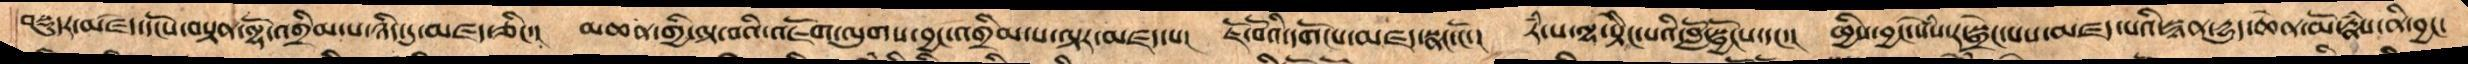བསྡུདར་མཛད་དེ་དངོས་བསྟན་ལྷོ་འགྲིམས་པ་ཉིད་དུ་མཛད་ཅིང་། མཆན་གྱི་ལྟ་བའི་འ་ཇོག་ལུགས་བྱང་འགྲིམས་པ་ལྟར་མཛད་པ། ཇོ་བོའི་དགོངས་མཛད་སྣང་ངོ་། རྃ་པ་ལྷ་སྡིེངས་པའི་བློ་སྦྱོངས་དང་། ཕྱིས་བྱང་སེྃས་རྭ་སྒྲེང་པས་མཛད་པའི་སྙན་རྒྱུད་ཆེན་མོ་རྣྃས་ནི་བྱང་
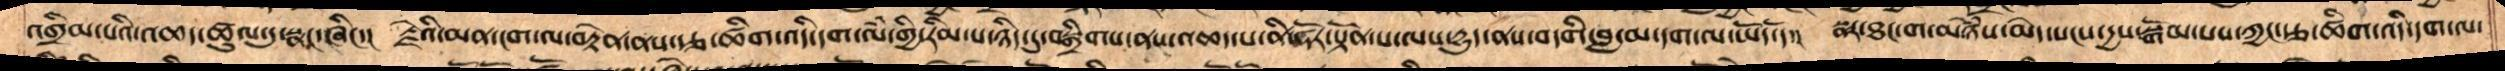འགྲིམ་པའི་འཆད་ཚུལ་དུ་སྣང་ཞིང་། རྗེའི་མན་ངག་ལ་བརྟེན་ནས་རྩ་ཚིག་འདི་དག་ལྃ་གྱི་རིམ་པ་ཉིད་དུ་བསྒྲིགས་ནས་འཆད་པ་ནི་ཧོར་སྟོན་པ་ལས་དྱུད་ནས་བདགི་བླ་མ་དག་ལ་ཡོད་དོ། སྣར་ཐང་པ་མཉྃས་མེད་སངས་དྱས་སྒོམ་པས་ཀྱང་རྩ་ཚིག་འདི་དག་ལ་
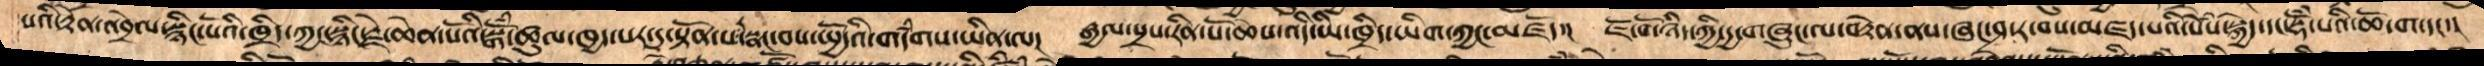པའི་རྟེན་འབྲེལ་སྙིང་པོའི་ཁྲིད་ཀྱང་སྙིང་རྗེ་ཆེན་པོའི་སྒོྃ་ཚུལ་ཁྱད་པར་དུ་སྟོན་པ་སྣང་བས་སྤྱོདའི་གདྃགས་ཡིན་ལ། རྒྱལ་སྲས་རིན་པོ་ཆེས་འདི་ཡི་ཁྲིད་ཡིག་ཅིག་ཀྱང་མཛོད་། ཇོ་བོ་ཉིད་ཀྱི་དྱ་གཞུང་ལ་བརྟེན་ནས་ཞང་ཤ་ར་བས་མཛད་པའི་སེྃས་སྐྱེད་དང་སྡོྃ་པའི་ཆོ་ག་དང་།
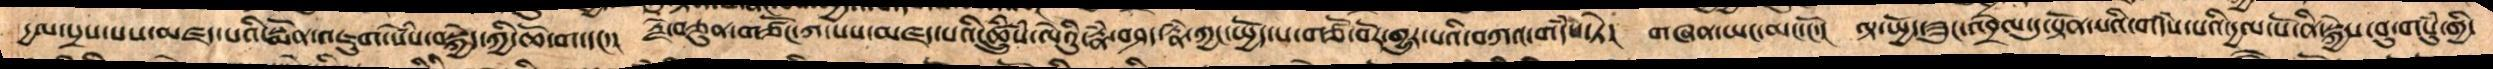དྱལ་སྲས་པས་མཛད་པའི་སྨོན་འཇུག་སེྃས་བསྐྱེད་ཀྱི་ཆོ་ག་དང་། རྗེ་བཙུན་གཙོང་ཀ་པས་མཛད་པའི་ཚྲིུཾས་ལེའིུ་རྣྃ་བཤད་རྣྃ་ཀྱང་སྤྱོད་པ་གཙོ་བོར་གྱུར་པའི་བཀའ་གདྃས་ཏེ། གཞན་ཡང་མང་ངོ་། ལྟ་སྤྱོད་ཟུང་འབྲེལ་དུ་སྟོན་པའི་གདྃས་པའི་རྒྱལ་པོ་ནི་སྐྱེས་བུ་གསུྃ་གྱི་
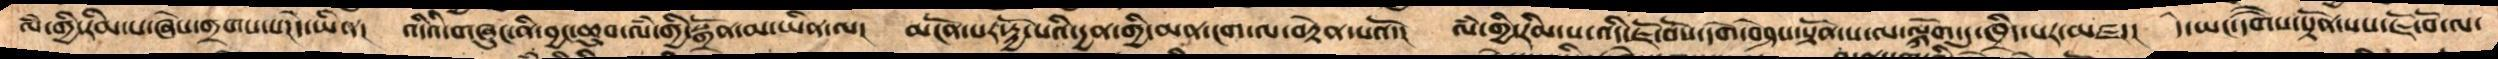ལྃ་གྱི་རིམ་པ་ཞེས་གྲགས་པ།དེ་ཡིན། འདིའི་གཞུང་ནི་བྱང་ཆུབ་ལྃ་གྱི་སྒྲོན་མ་ཡིན་ལ། མངོན་པར་རྟྱོ་པའི་དྱན་གྱི་མན་ངག་ལ་བརྟེན་པའོ། ལྃ་གྱི་རིམ་པ་འདི་ཇོ་བོས་དགེ་བཤེསསྟོན་པ་ལ་ལྐོག་དུ་ཁྲིད་པར་མཛད།  དེ་ཡང་དགེེཻས་སྟོན་པས་ཇོ་བོ་ལ་
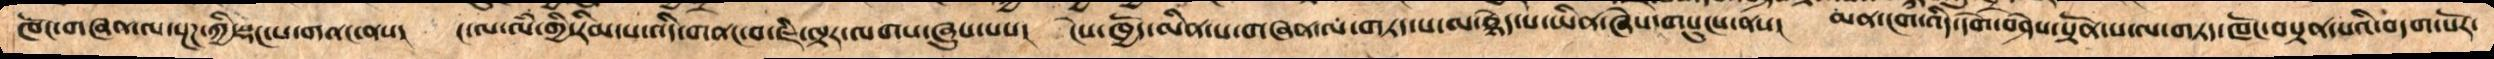ཁོང་གཞན་ལ་སྔཌ་ཀྱི་སྡང་པ་གནང་ནས། ང་ལ་ལྃ་གྱི་རིམ་པ་འདི་གནང་བ་ཇི་ལྟར་ལགས་ཞུས་པས། ངེས་ཁྱོད་མིན་པ་གཞན་ལ་གཏད་ས་མ་རྙེད་པ་ཡིན་ཞེས་གསུངས་ནས། མན་ངག་འདི་དགེ་བཤེས་སྟོན་པ་ལ་གཏད་ཁོང་བསྟན་པའི་བདག་པོར་
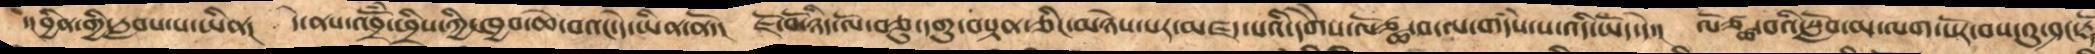་།བྱིན་གྱི་རླབས་པ་ཡིན། དེ་ནས་འབྲོྃ་ཕྲིསཀྱི་ཁྱབ་ཆེ་བའང་དེ་ཡིན་ནོ་། ཇོ་བོ་ཉིད་ལོ་བཅུ་དགུ་བསྟན་ཅིང་མཉེས་པར་མཛད་པའི་དགཻས་ལོ་ཙྪ་བ་ལ་གདཾས་པ་འདི་ཡོད་དེ། ལོ་ཙྪ་བའི་སློབ་མ་ལག་སོར་བས་འུ་ཤང་རྡོར
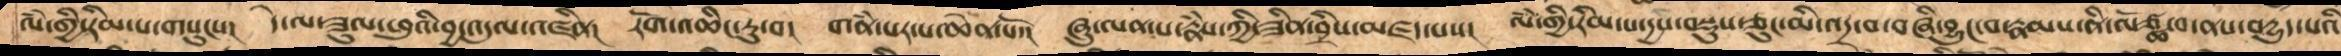ལྃ་གྱི་རིམ་པ་གསུངས། དེ་ལ་ཟུལ་ཕུའི་བྱ་འདུལ་འཛིན། རོག་འཆིང་རུ་བ། གནྃ་པར་པ་ཆེན་པོ་། ཞུ་ལན་པ་རྣྃས་ཀྱི་ཟིན་བྲིས་མཛད་པས། ལྃ་གྱི་རིམ་པ་དྱས་བསྡུས་ཅུང་མི་འདྲ་བ་བཞི་བྱུང་བ་རྣམས་ནི་ལོ་ཙྪ་བ་ནས་བདྱུད་པའི
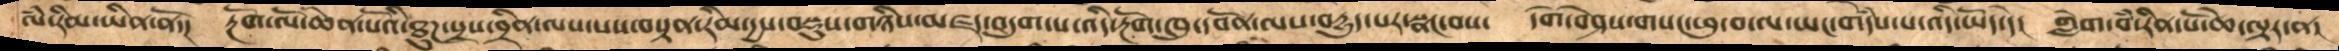ལྃ་རིམ་ཡིན་ནོ་། རྔོག་ལོ་ཆེན་པོའི་ཐུཌ་སྲས་བྲིན་ལས་པས་བསྟན་རིམ་དྱས་བསྡུས་གཉིས་མཛད་བདུག་པ་འདི་རྔོག་ཁུ་དབོན་ལས་བདྱུད་པར་སྣང་བས། དགེ་བཤེས་གསང་ཕུ་བ་ལ་ཡང་གདྃས་པ་འདི་ཡོད་དེ། གླེག་བྃ་རིན་པོ་ཆེ་ལྟར་ན།
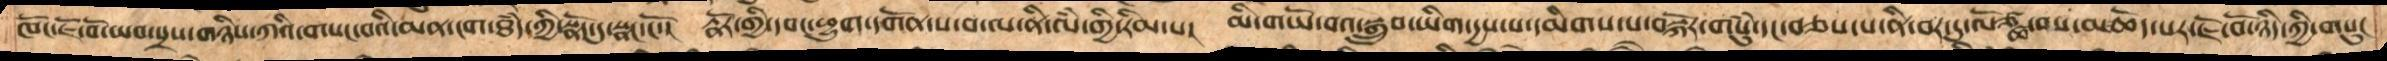ཁོང་ཇོ་བོ་ཡབ་སྲསགཉིས་ཀའི་གསང་བའི་མན་ངག་ཐྃད་ཀྱི་སྣོད་དུ་སྣང་ངོ་། རྣོར་གྱི་དབང་ཕྱུག་དགོན་པ་བ་ལ་ནི་ལྃ་གྱི་རིམ་པ། མི་གཡོ་བའ་སྒྲུབ་ཡིག་དྱས་པ་དམིགས་པ་བསྐོར་གསུྃ་དང་བཅས་པ་ནི་བར་དུ་ལོཙྪ་བས་མཆོད་པར་ཇོ་བོ་ཉིད་ཀྱིས་གསུང
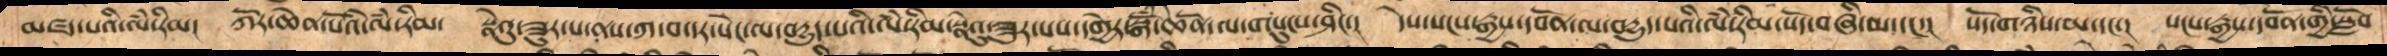མཛད་པའི་ལྃ་རིམ། ཀོར་ཆེན་པོའི་ལྃ་རིམ། སྣེའུ་ཟུར་པ་ནས་སཀ་བ་དར་སེང་ལ་བདྱུད་པའི་ལྃ་རིམ་སྣེའུ་ཟུར་པས་དགྱེར་སྒོྃ་ཆེོན་ལ་གསུངས་ཤིང་། དེས་སངས་རྒྱས་དབོན་ལ་བདྱུད་པའི་ལྃ་རིམ་པོད་བཞི་མ་དང་། པོད་གཉིས་མ་དང་། སངས་རྒྱས་དབོན་གྱི་སློབ་
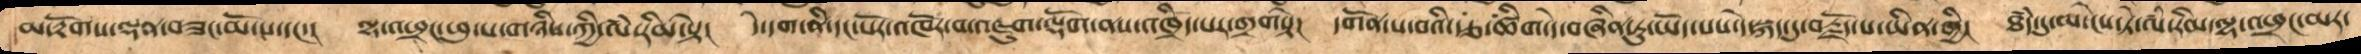མ་རྟོགས་ལྡན་བཟང་མོ་པ་དང་། ལྷ་འཕྲང་ཕུ་པ་གཉིས་ཀྱི་ལྃ་རིམ་སྟེ། དེ་དག་ནི་དང་པོར་འཁོར་མ་འཇུག་ལྡོག་ནས་འཁྲིད་པར་གྲགསྟེ། དགོན་པ་བའི་རྩ་ཚིག་དེ་བཞིན་ཏུ་ཡོད་པས་དེ་སྐད་དུ་བརྗོད་པ་ཡིན་གྱི། ཐྃད་དུ་མ་ངེས་ཏེ་ལྃ་རིམ་ལྷ་འཕྲང་མར་
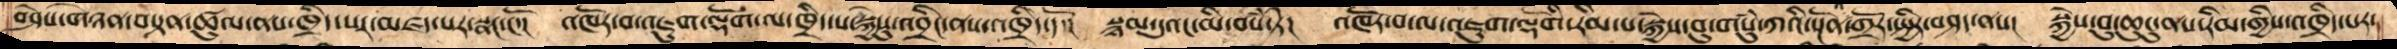བཤེས་གཉེན་བསྟན་ཚུལ་ནས་ཁྲིད་པར་མཛད་པར་སྣང་ངོ་། འཁོར་བ་འཇུག་ལྡོག་ལ་ཁྲིད་པ་སྐྱེསུ་འབྲིང་ནས་འཁྲིད་དོ་། སྙམ་དུའང་མི་བསྃ་ཏེ། འཁོར་བ་ལ་འཇུག་ལྡོགི་རིམ་པ་སྐྱེས་བུ་གསུཾ་ཀའི་སྔོན་འགྲོར་སྤྱིར་བཤད་ནས། སྐྱེས་བུ་ཆུངུ་ནས་རིམ་གྱིས་འཁྲིད་པར་
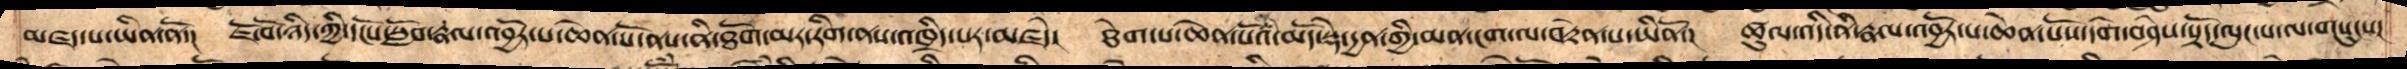མཛད་པ་ཡིན་ནོ་། ཇོ་བོ་ཉིད་ཀྱི་དངོས་སློབ་རྣལ་འབྱོར་པ་ཆེན་པོ་ནས་ནི་ཐོག་མར་རིག་ནས་འཁྲིད་པར་མཛདེ། ཐེག་པ་ཆེན་པོའི་མདོ་སྡེ་དྱན་གྱི་མན་ངག་ལ་བརྟེན་པ་ཡིནོ། ཚུལ་འདི་ནི་རྣལ་འབྱོར་པ་ཆེན་པོས་དགེ་བཤེས་སྟོད་ལུང་པ་ལ་གསུངས།
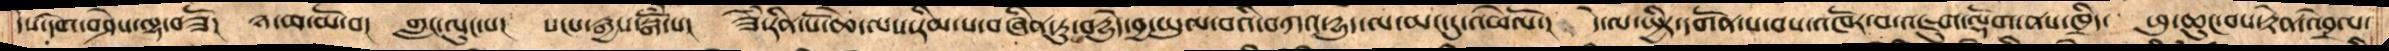དེས་དགེ་བཤེས་ལྷ་བཟོ། ཉ་མ་མོ་བ། གླང་ལུང་པ། སངཔ་རྒྱས་སྒོྃ་པ། ཟེྃ་རིན་པོ་ཆེ་ལས་རིམ་པ་བཞིན་ཏུ་བདྱུདེ་བྱ་ཡུལ་བའི་བཀའ་དྱུད་ལ་མང་དུ་འཕེལོ་། དེ་ལ་སྤྱིར་དགོན་པ་བས་འཁོར་བ་འཇུག་ལྡོག་ནས་ཁྲིད་ ཕུ་ཆུང་བས་རྟེན་འབྲེལ་
